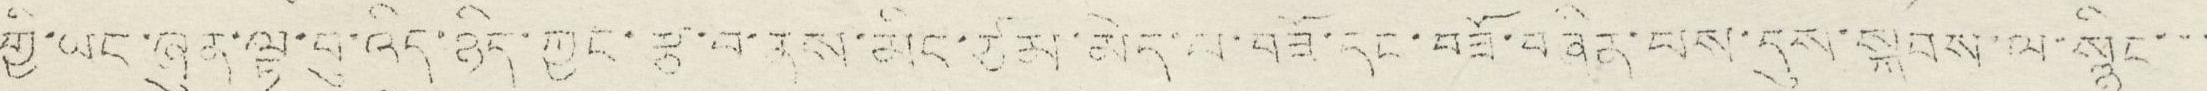གྱི་ཡང་ཞུན་ལྟ་བུ་འདི་ཉིད་ཀྱང་རྩ་བ་ནས་མིང་ཙམ་མེད་པ་བཟོ་དང་བཟོ་བཞིན་པས་དུས་སྐབས་ལ་སྙིང་་་
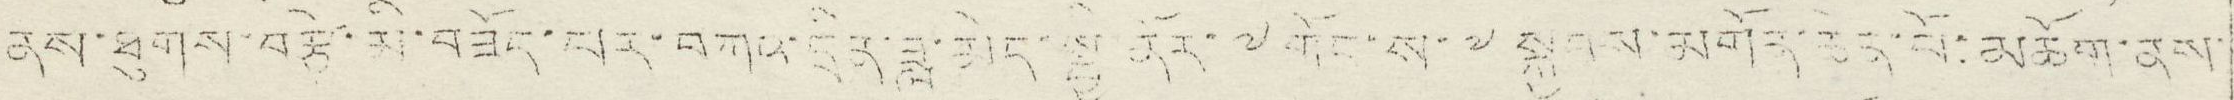ནས་ཐུགས་བརྩེ་མི་བཟོད་པར་བཀའ་དྲིན་ཟླ་མེད་སྤྱི་ནོར་༸གོང་ས་༸སྐྱབས་མགོན་ཆེན་པོ་མཆོག་ནས་
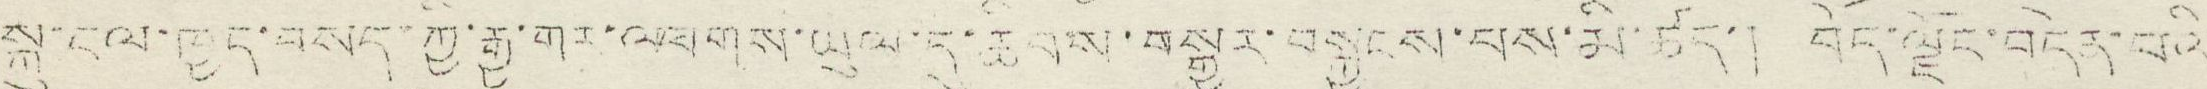སྐུ་ངལ་ཁྱད་བསད་ཀྱི་རྒྱ་གར་འཕགས་ཡུལ་དུ་ཆིབས་བསྒྱུར་བསྐྱངས་པས་མི་ཚད་། བོད་ལྗོང་བདེན་པའི་
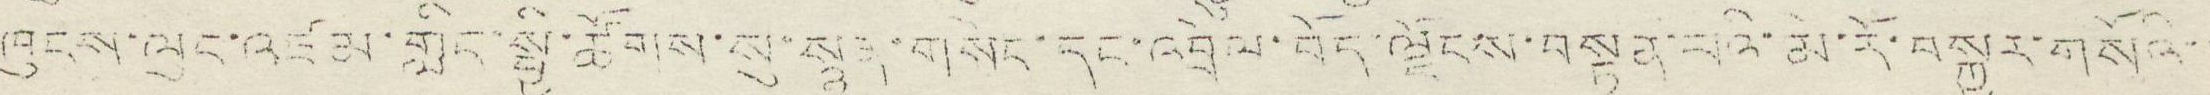ཁུངས་ལུང་འཛམ་གླིང་སྤྱི་ཚོགས་སུ་སྙན་གསེར་དང་འབྲེལ་བོད་ལྗོངས་བསྟན་པའི་མེ་རོ་བསྐྱར་གསོའི་་
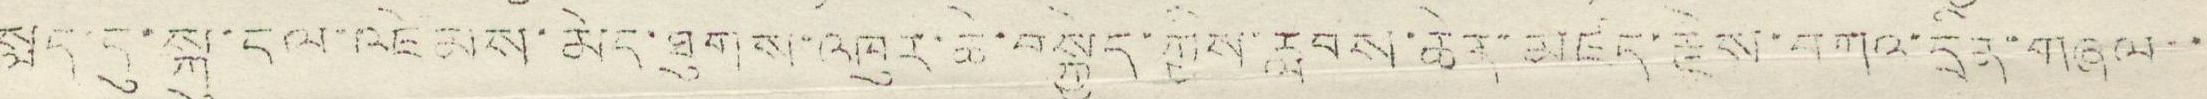སླད་དུ་སྐུ་ངལ་འཛེམས་མེད་ཐུགས་འཁུར་ཆེ་བསྐྱེད་ཀྱིས་རླབས་ཆེན་མཛད་རྗེས་བཀའ་དྲིན་གཞལ་་
